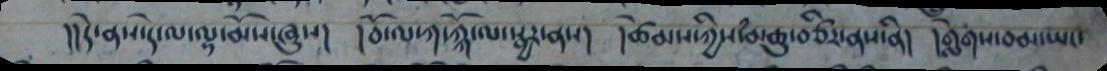།།དེ་ནས་དེ་ལ་ལྷ་མོས་ཞུས། །བོ་ལ་ཀ་ཀྐོ་ལ་སྦྱར་ནས། །ཚེམས་ཀྱིས་མཆུ་བཙིར་ནས་ནི། །གེགས་བམ་ཡང་
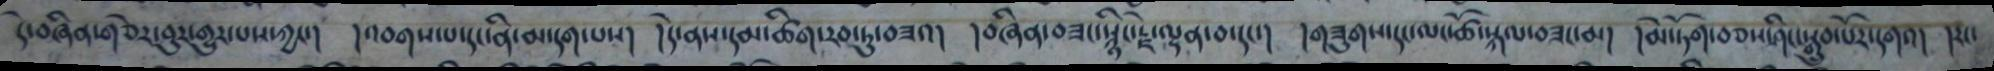དེ་བཞིན་གཅེར་བུར་གྱུར་པས་ཀྱང་། །འབགས་པ་དང་ནི་མ་དག་པས། །དེ་ནས་དམ་ཚིག་རབ་ཏུ་བཟའ། །བཞིན་བཟང་སྙིང་རྗེ་ལྡན་བ་དང་། །གཟུགས་དང་ལང་ཚོ་སྐལ་བཟང་མ། །མེ་ཏོག་བཅས་ཤིང་སྒྲུབ་པོར་དགའ། །རང་
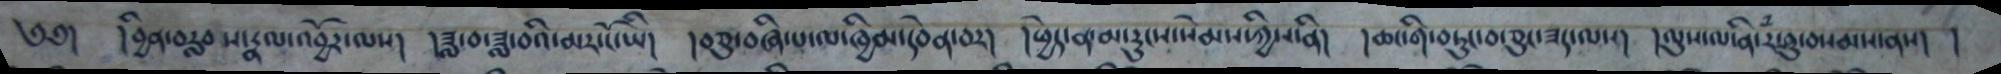༄༅། །བྱིན་བརླབས་རྣལ་འབྱོར་ལས། །ཟླ་བ་ཟླ་བའི་མར་ངོ་ཡི། །བཅུ་བཞི་པ་ལ་ཁྱིམ་དབེན་བར། །ཕྱེད་ན་མ་རུང་སེམས་ཀྱིས་ནི། །ཆང་གི་བཏུང་བ་ཅུང་ཟད་ལས། །ལུས་ལ་ནི་རཾ་ཤུ་བསམས་ནས། །
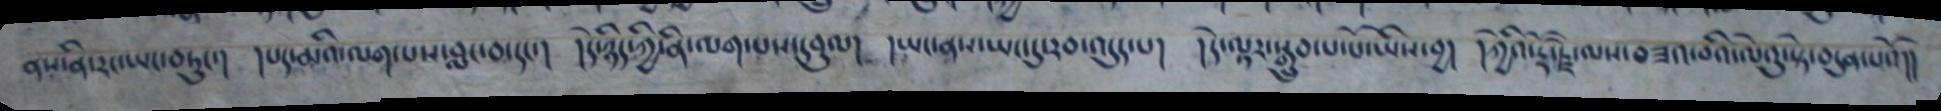ནས་ནི་རང་ཡང་བཏུང་། །པད་མའི་ལག་པས་བླང་བ་དང་། །དེ་ཉིད་ཀྱི་ནི་ལག་པས་དབུལ། །ཡང་ནས་ཡང་དུ་རབ་འདུད་པ། །དེ་ལྟར་སྒྲུབ་པ་པོ་ཡིས་བྱ། །ཀྱེའི་རྡོ་རྗེ་ལས་བཟང་བའི་ལེའུ་སྟེ་བདུན་པའོ།།
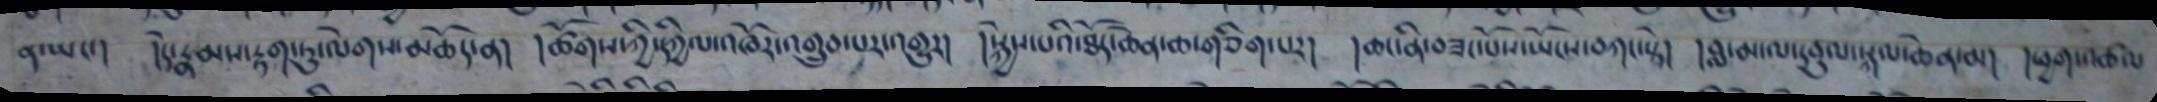ན་ཡང་། །དེ་རྣམས་རྟག་ཏུ་ལེགས་མཆོད་ན། །ཚོགས་ཀྱི་དཀྱིལ་འཁོར་འགྲུབ་པར་འགྱུར། །སྐྱེས་པའི་ཐོད་ཆེན་ཆ་གཅིག་པར། །ཆང་ནི་བཟང་པོས་ཡོངས་བཀང་སྟེ། །བླ་མ་ལ་དབུལ་སྐལ་ཆེན་མ། །ཕྱག་འཚལ
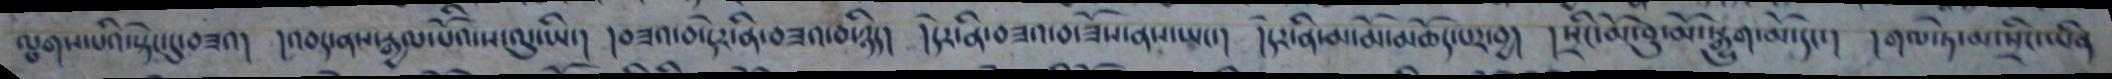ལྤགས་པའི་སྟེང་དུ་བཟའ། །འབད་ནས་རྒྱལ་པོའི་ས་ལུ་ཡི་། བཟའ་བ་དེར་ནི་བཟའ་བ་ཉིད། །དེར་ནི་བཟའ་བ་ཟོས་ནས་ཡང་། །དེར་ནི་མ་མོ་མཆོད་པར་བྱ། །སྲིང་མོ་བུ་མོ་སྒྱུག་མོ་དང་། །གལ་ཏེ་མ་སྲིང་ཡིན
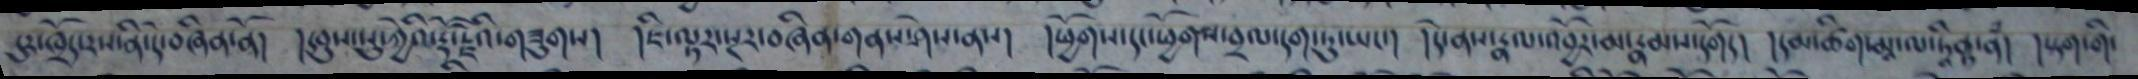དུར་ཁྲོད་རས་ནི་དེ་བཞིན་ནོ། །དབུས་སུ་ཀྱེའི་རྡོ་རྗེའི་གཟུགས། །ཇི་ལྟར་སྔར་བཞིན་གནས་ཤེས་ནས། །ཕྱོགས་དང་ཕྱོགས་བྲལ་དག་ཏུ་ཡང་། །དེ་ནས་རྣལ་འབྱོར་མ་རྣམས་དགོད། །དམ་ཚིག་མཱ་ལ་ཏཱིནྟ་ནཾ། །སྟག་གི་
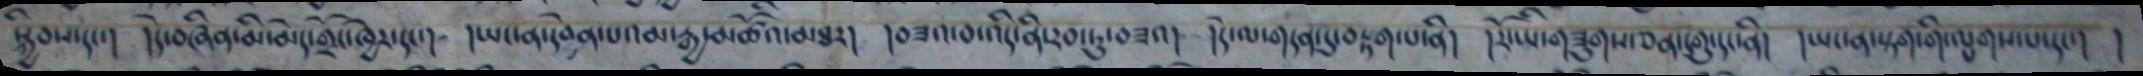སྐྱིབས་དང་། །དེ་བཞིན་མི་མེད་གྲོང་ཁྱེར་དང་། །ཡང་ན་དབེན་པའམ་རྒྱ་མཚོའི་མཐར། །བཟའ་བ་འདི་ནི་རབ་ཏུ་བཟའ། །དེ་ལ་གདན་དུ་བརྟག་པ་ནི། །རོ་ཡི་གཟུགས་ཅན་དགུ་དང་ནི། །ཡང་ན་སྟག་གི་ལྤགས་པ་དང་། །
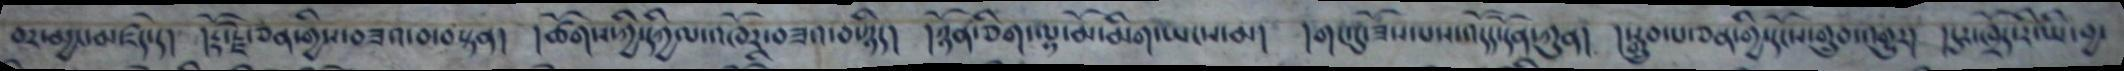བར་མྱང་མཛད་དེ། །རྡོ་རྗེ་ཅན་གྱིས་བཟའ་བ་བསྟན། །ཚོགས་ཀྱི་དཀྱིལ་འཁོར་བཟའ་བ་ཉིད། །ཉོན་ཅིག་ལྷ་མོ་མིག་ཡངས་མ། །གང་དུ་ཟོས་པས་འདོད་དོན་ཀུན་། །སྒྲུབ་པ་ཅན་གྱི་དངོས་གྲུབ་འགྱུར། །དུར་ཁྲོད་རི་ཡི་བྱ་
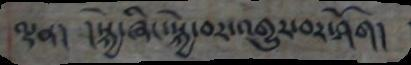ལྡན། །སྐྱེ་ཞིང་སྐྱེ་བར་འགྱུར་བར་ཤོག།
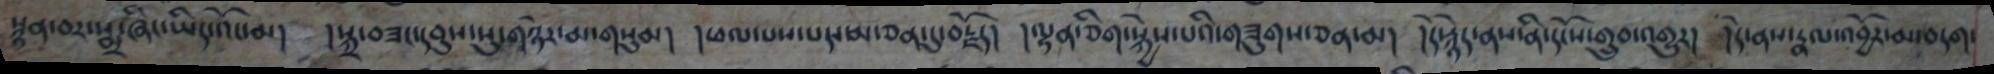སྙན་བར་སྨྲ་ཞིང་ཡིད་འོང་མ། །སྐྲ་བཟང་དབུས་སུ་གཉེར་མ་གསུམ། །ཕལ་པས་པད་མ་ཅན་དུ་བརྗོད། །ལྷན་ཅིག་སྐྱེས་པའི་གཟུགས་ཅན་མ། །དེ་སྙེད་ནས་ནི་དངོས་གྲུབ་འགྱུར། །དེ་ནས་རྣལ་འབྱོར་མ་བདག་
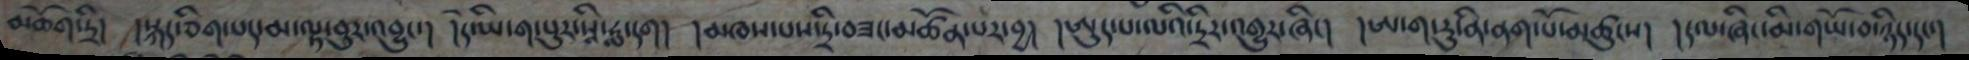མཆོག་དྲི། །སྐད་ཅིག་པད་མ་ལྟ་བུར་འབྱུང་། །དེ་ཡི་ག་པུར་སཱི་ཧླ་དག། །མཁས་པས་དྲི་བཟང་མཚོན་པར་བྱ། །ཨུད་པ་ལའི་དྲིར་འགྱུར་ཞིང་། །ཨ་ག་རུ་ནི་ནག་པོ་མཚུངས། །དལ་ཞིང་མི་གཡོ་བ་ཉིད་དང་།
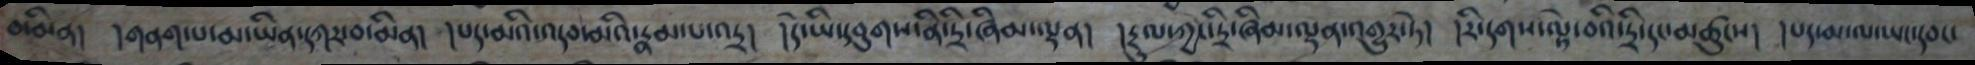བ་མིན། །གནག་པ་མ་ཡིན་དཀར་བ་མིན། །པད་མའི་འདབ་མའི་རྣམ་པ་འདྲ། །དེ་ཡི་དབུགས་ནི་དྲི་ཞིམ་ལྡན། །རྡུལ་ཀྱང་དྲི་ཞིམ་ལྡན་འགྱུར་ཏེ། །རི་དགས་ལྟེ་བའི་དྲི་དང་མཚུངས། །པད་མ་ལ་ཡང་དབང་
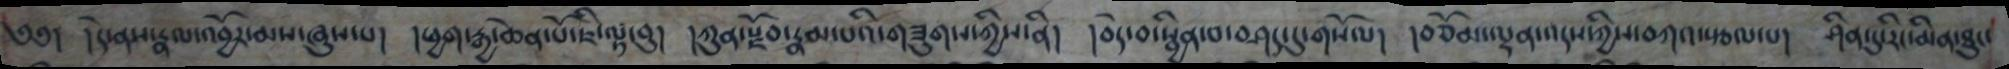༄༅། །དེ་ནས་རྣལ་འབྱོར་མས་ཞུས་པ། །ཕྱག་རྒྱ་ཆེན་པོ་ཇི་ལྟ་བུ། །ཀུན་སྫོབ་རྣམ་པའི་གཟུགས་ཀྱིས་ནི། །བདེ་བ་སྦྱིན་པ་བཤད་དུ་གསོལ། །བཅོམ་ལྡན་འདས་ཀྱིས་བཀའ་སྩལ་པ། ཤིན་དུ་རིང་མིན་ཐུང་
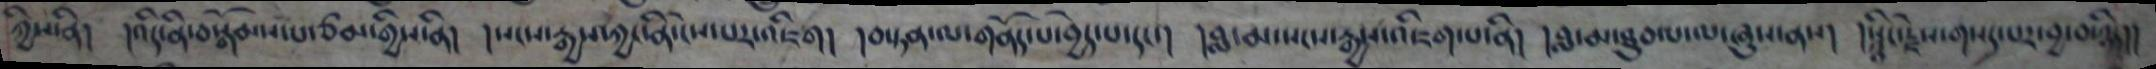ཀྱིས་ནི། །འདི་ནི་བསྒོམས་པ་ཙམ་གྱིས་ནི། །སངས་རྒྱས་ཀྱང་ནི་ངེས་པར་འཇིག། །བསྟན་ལ་གནོད་པ་བྱེད་པ་དང་། །བླ་མ་སངས་རྒྱས་འཇིག་པ་ནི། །བླ་མ་ཐུབ་པ་ལ་ཞུས་ནས། །སྙིང་རྗེས་གསད་པར་བྱ་བ་ཉིད།།
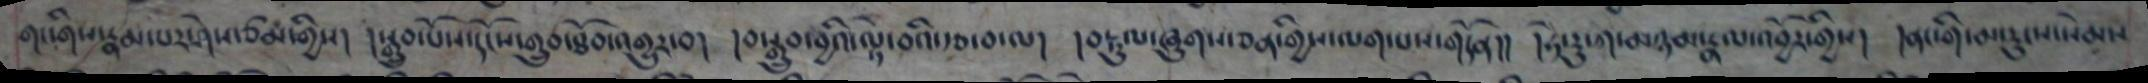གང་གིས་རྣམ་པར་ཤེས་ཙམ་གྱིས། །སྒྲུབ་པོས་དངོས་གྲུབ་ཐོབ་འགྱུར་བ། །བསྒྲུབ་བྱའི་ལྟེ་བའི་རྩ་བ་ལ། །རྟུལ་ཞུགས་ཅན་གྱིས་ལག་པས་གདོན།། །ཧེ་རུ་ཀ་མཉམ་རྣལ་འབྱར་གྱིས། །ནང་གི་མ་རུངས་སེམས
